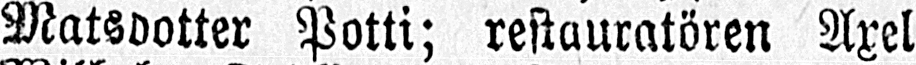Matsdotter Potti; restauratören Axel
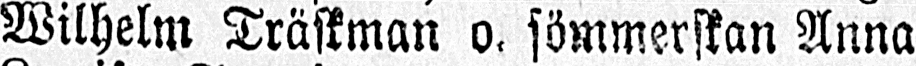Wilhelm Träskman o. sömmerskan Anna
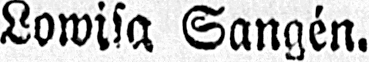Lowisa Sangén.
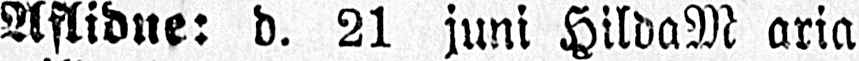Aflidne: d. 21 juni HildaM aria
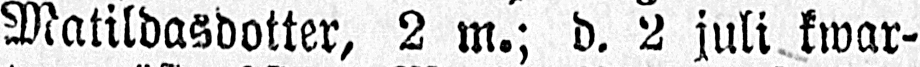Matildasdotter, 2 m.; d. 2 juli kwar-
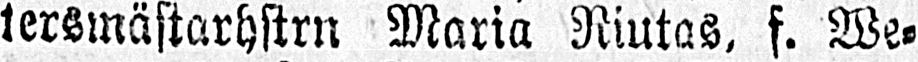tersmästarhstrn Maria Riutas, f. We-
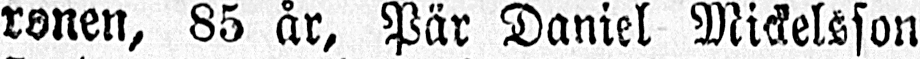ronen, 85 år, Pär Daniel Mickelsson
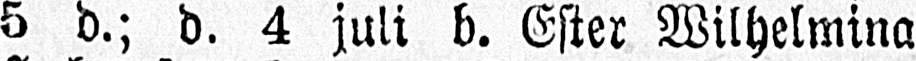5 d.; d. 4 juli b. Ester Wilhelmina
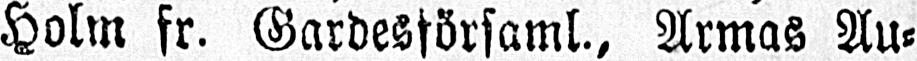Holm fr. Gardesförsaml., Armas Au-
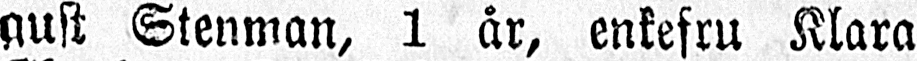gust Stenman, 1 år, enkefru Klara
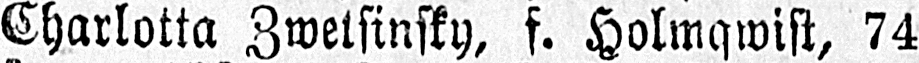Charlotta Zwetsinsky, f. Holmqwist, 74
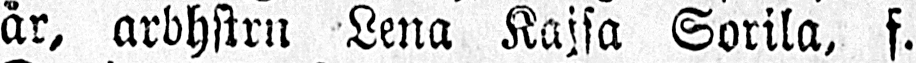år, arbhstrn Lena Kajsa Sorila, f.
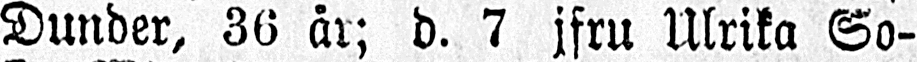Dunder, 36 år; d. 7 jfru Ulrika So-
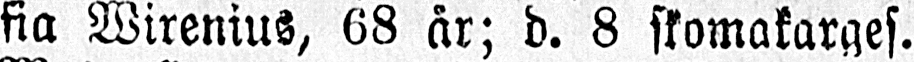fia Wirenius, 68 år; d. 8 skomakarges.
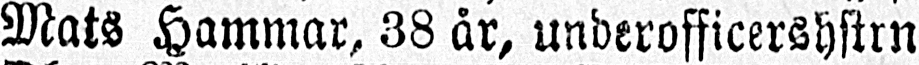Mats Hammar, 38 år, underofficershstrn
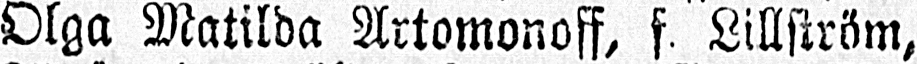Olga Matilda Artomonoff, f. Lillström,
